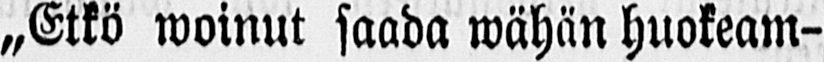„Etkö woinut saada wähän huokeam-
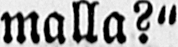malla?"
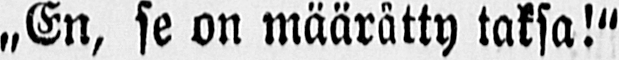„En, se on määrätty taksa!"
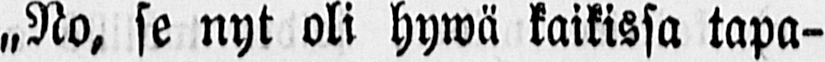„No, se nyt oli hywä kaikissa tapa-
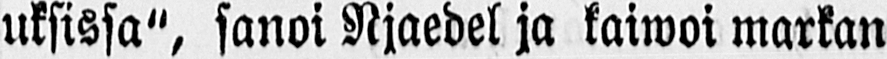uksissa", sanoi Njaedel ja kaiwoi markan
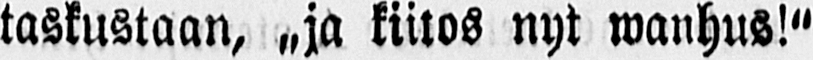taskustaan, „ja kiitos nyt wanhus!"
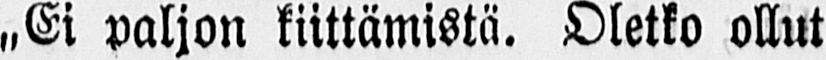„Ei paljon kiittämistä. Oletko ollut
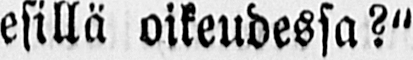esillä oikeudessa?"
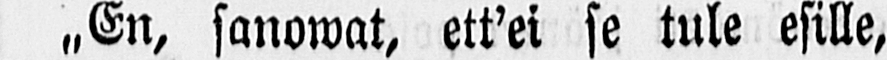˶En, sanowat, ett'ei se tule esille,
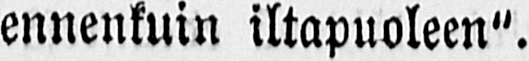ennenkuin iltapuoleen".
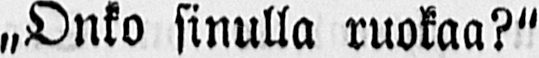„Onko sinulla ruokaa?"
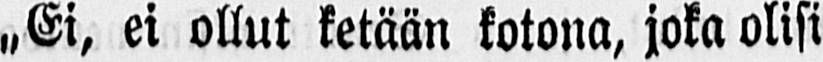„Ei, ei ollut ketään kotona, joka olisi
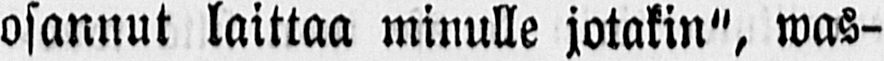osannut laittaa minulle jotakin", was-
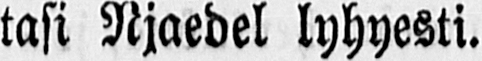tasi Njaedel lyhyesti.
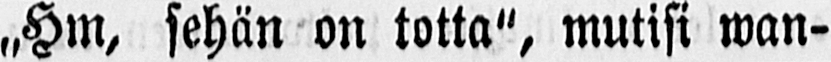„Hm, sehän on totta", mutisi wan-
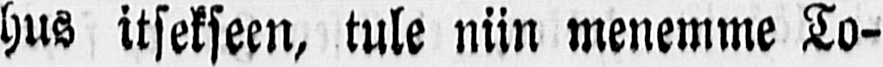hus itsekseen, tule niin menemme To-
